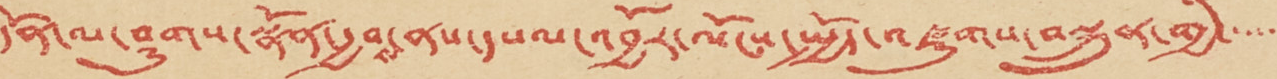དོན་ལ་ཤུགས་སྣོན་རྒྱབས་ནས་དཔལ་འབྱོར་ལོངས་སྤྱོད་འཛུགས་བསྐྲུན་གྱི་་་་་
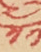༡༡
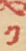༡
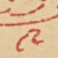༩
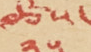ཚེས་
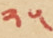༢༥
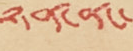ཉིན་ནང་
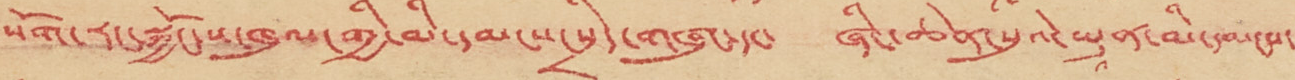སོག་རང་སྐྱོང་ས་ཁུལ་གྱི་མི་དམངས་སྲིད་གཞུང་དང་ ཞིང་ཆེན་སུའེ་ཡཱུན་མི་དམངས་
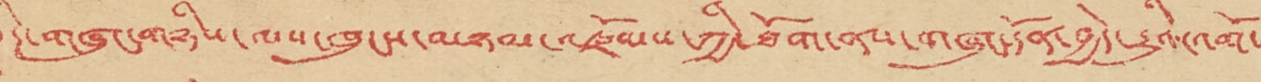སྲིད་གཞུང་གཉིས་ལས་ཁུངས་མཉམ་འཛོམས་ཀྱི་ཐོག་ནས་གཞུང་དོན་བྱེད་རྒྱུའི་འགོ་
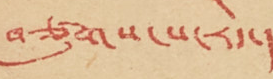བཙུགས་པ་རེད་།
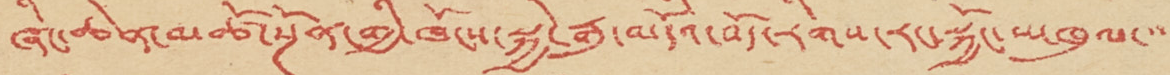• ཞིང་ཆེན་མཚོ་སྔོན་གྱི་ཁོངས་སྐྱེ་རྒུ་མདོའི་བོད་རིགས་རང་སྐྱོང་ས་ཁུལ་་་
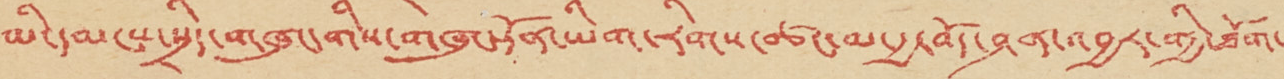མི་དམངས་སྲིད་གཞུང་གིས་གཞུང་དོན་ཡིག་རིགས་ཚང་མ་རྒྱ་བོད་ཤན་འབྱར་གྱི་ཐོག་
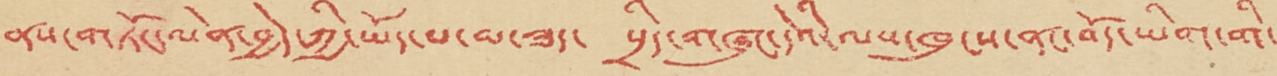ནས་གཏོང་ལེན་བྱེད་ཀྱི་ཡོད་པ་མ་ཟད་ སྲིད་གཞུང་དེའི་ལས་ཁུངས་ནང་བོད་ཡིག་གི་
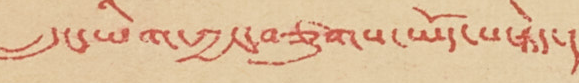དྲུང་ཡིག་ཀྱང་བཙུགས་ཡོད་པ་རེད་།
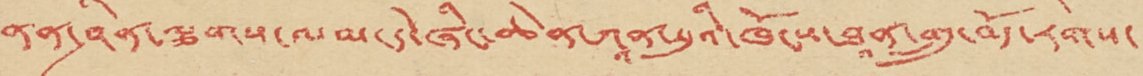• ནན་ཤིན་ལྕགས་ལམ་དེ་ཞིང་ཆེན་ཀཱན་སུའི་ཁོངས་ཐཱན་གྲུ་བོད་རིགས་
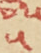༥
